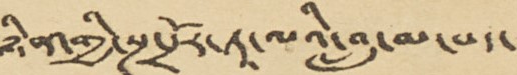ཉིན་གྱི་སྔ་དྲོར་ཏཱ་ལའི་བླ་མ་པད་
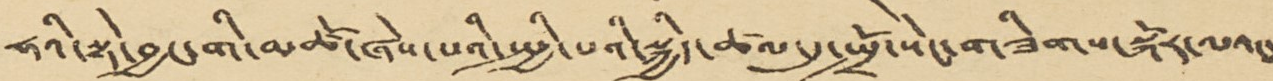ཧའི་སྟེ་བྱང་གི་མཚོ་ཞེས་པའི་སྤྱི་པའི་སྐྱིད་ཚལ་དུ་སྤྲོ་སེང་གཟིགས་སྐོར་ལའང་
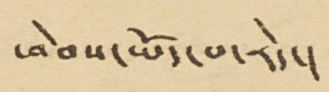ཕེབས་ཡོད་པ་རེད་།
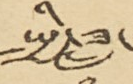སྤྱི་ཟླ་
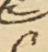༩
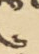༦
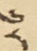༨
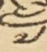༧
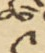༩
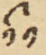༡༡
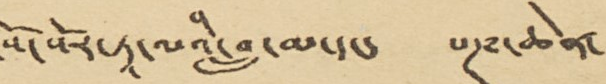སོ་སོར་ཏཱ་ལའི་བླ་མ་དང་ པཎ་ཆེན་
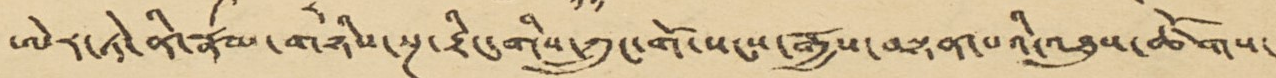ཨེར་ཏེ་ནི་རྣམ་གཉིས་སྔ་རྟིང་གིས་ཀྲུང་གོ་སངས་རྒྱས་བསྟན་པའི་འཐུས་ཚོགས་
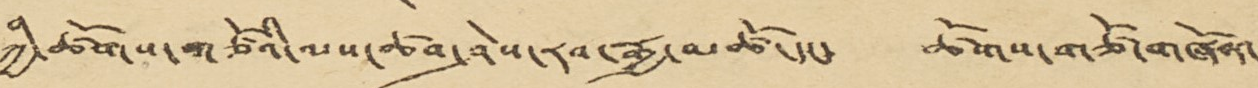ཀྱི་ཚོགས་གཙོའི་ལས་ཚབ་ཤེས་རབ་རྒྱ་མཚོ་དང་ ཚོགས་གཙོ་གཞོན་
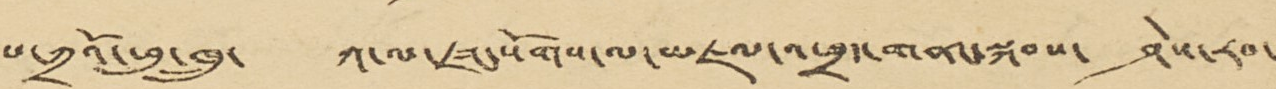པ་ཀྲའོ་ཕུ་ཁྲུ་ ཀ་ལ་ཛང་སོགས་ལ་མཇལ་འཕྲད་གནང་སྐབས་ ཤེས་རབ་
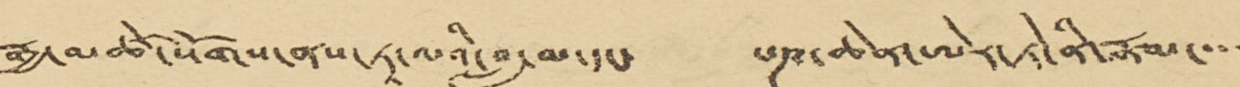རྒྱ་མཚོ་སོགས་ནས་ཏཱ་ལའི་བླ་མ་དང་ པཎ་ཆེན་ཨེར་ཏེ་ནི་རྣམ་་་་
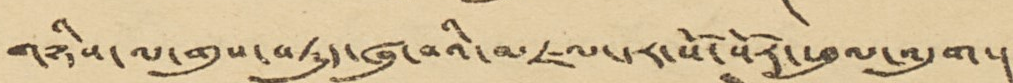གཉིས་ལ་གུས་བཏུད་ཞུ་བའི་མཇལ་དར་སོ་སོར་ཕུལ་འདུག་།
